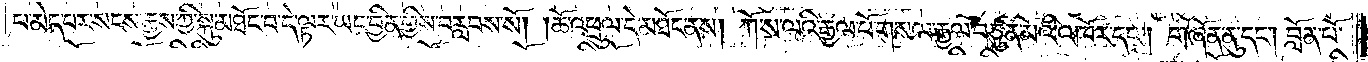པ་མེད་པར་སངས་རྒྱས་ཀྱི་སྐུ་མཐོང་བ་དེ་ལྟར་ཡང་བྱིན་གྱིས་བརླབས་སོ། །ཆོ་འཕྲུལ་དེ་མཐོང་ནས། ཀོ་ས་ལའི་རྒྱལ་པོ་གསལ་རྒྱལ་བཙུན་མོའི་འཁོར་དང༌། གཞོན་ནུ་དང༌། བློན་པོ་
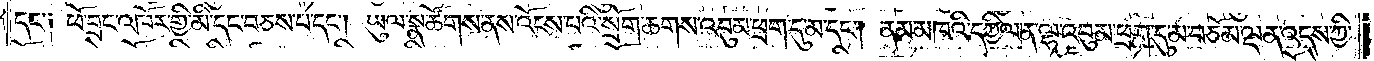དང༌། ཕོ་བྲང་འཁོར་གྱི་མི་དང་བཅས་པ་དང༌། ཡུལ་སྣ་ཚོགས་ནས་འོངས་པའི་སྲོག་ཆགས་འབུམ་ཕྲག་དུ་མ་དང༌། ནམ་མཁའི་དཀྱིལ་ན་ལྷ་འབུམ་ཕྲག་དུ་མ་བཅོམ་ལྡན་འདས་ཀྱི་
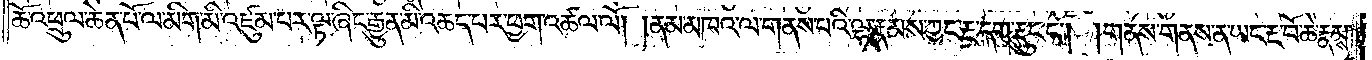ཆོ་འཕྲུལ་ཆེན་པོ་ལ་མིག་མི་འཛུམ་པར་ལྟ་ཞིང་རྒྱུན་མི་འཆད་པར་ཕྱག་འཚལ་ལོ། །ནམ་མཁའ་ལ་གནས་པའི་ལྷ་རྣམས་ཀྱང་རྔ་དག་རྡུང་ངོ༌། །གནས་གནས་ན་ཡང་རྔ་བོ་ཆེ་རྣམས་
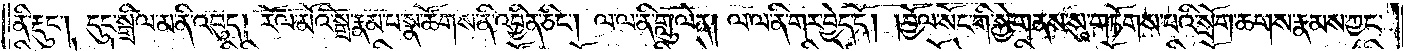ནི་རྡུང༌། དུང་སྒྲིལ་མ་ནི་འབུད། རོལ་མོའི་སྒྲ་རྣམ་པ་སྣ་ཚོགས་ནི་འབྱིན་ཅིང༌། ལ་ལ་ནི་གླུ་ལེན། ལ་ལ་ནི་གར་བྱེད་དོ། །བྱོལ་སོང་གི་སྐྱེ་གནས་སུ་གཏོགས་པའི་སྲོག་ཆགས་རྣམས་ཀྱང་
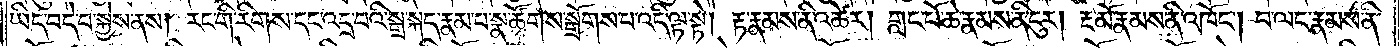ཡིད་བདེ་བ་སྐྱེས་ནས། རང་གི་རིགས་དང་འདྲ་བའི་སྒྲ་སྐད་རྣམ་པ་སྣ་ཚོགས་སྒྲོགས་པ་འདི་ལྟ་སྟེ། རྟ་རྣམས་ནི་འཚེར། གླང་པོ་ཆེ་རྣམས་ནི་ངུར། རྔ་མོ་རྣམས་ནི་འཁོང༌། བ་ལང་རྣམས་ནི་
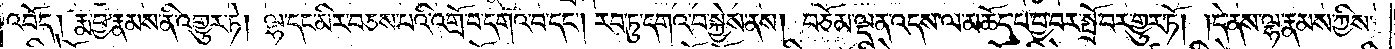འབོད། རྨ་བྱ་རྣམས་ནི་འགྱུར་ཏེ། ལྷ་དང་མིར་བཅས་པའི་འགྲོ་བ་དགའ་བ་དང༌། རབ་ཏུ་དགའ་བ་སྐྱེས་ནས། བཅོམ་ལྡན་འདས་ལ་མཆོད་པ་བྱ་བར་སྤོར་བར་གྱུར་ཏོ། །དེ་ནས་ལྷ་རྣམས་ཀྱིས་
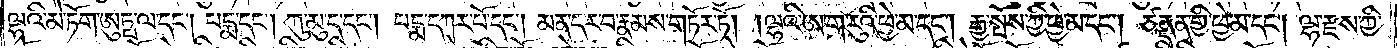ལྷའི་མེ་ཏོག་ཨུཏྤ་ལ་དང༌། པདྨ་དང༌། ཀུ་མུ་དང༌། པདྨ་དཀར་པོ་དང༌། མན་ད་ར་བ་རྣམས་གཏོར་ཏོ། །ལྷའི་ཨ་ག་རུའི་ཕྱེ་མ་དང༌། རྒྱ་སྤོས་ཀྱི་ཕྱེ་མ་དང༌། ཙནྡན་གྱི་ཕྱེ་མ་དང༌། ལྷ་རྫས་ཀྱི་
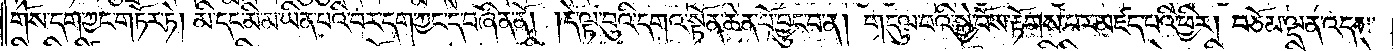གོས་དག་ཀྱང་གཏོར་ཏེ། མི་དང་མི་མ་ཡིན་པའི་བར་དག་ཀྱང་དེ་བཞིན་ནོ། །དེ་ལྟ་བུའི་དགའ་སྟོན་ཆེན་པོ་བྱུང་བ་ན། གདུལ་བའི་སྐྱེ་བོས་རྟོགས་པར་མཛད་པའི་ཕྱིར། བཅོམ་ལྡན་འདས་
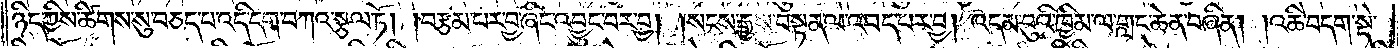ཉིད་ཀྱིས་ཚིགས་སུ་བཅད་པ་འདི་དག་བཀའ་སྩལ་ཏོ། །བརྩམ་པར་བྱ་ཞིང་འབྱུང་བར་བྱ། །སངས་རྒྱས་བསྟན་ལ་འབད་པར་བྱ། འདམ་བུའི་ཁྱིམ་ལ་གླང་ཆེན་བཞིན། །འཆི་བདག་སྡེ་
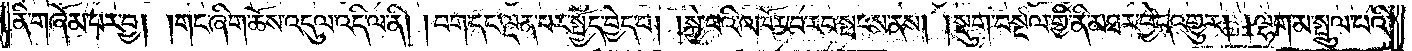ནི་གཞོམ་པར་བྱ། །གང་ཞིག་ཆོས་འདུལ་འདི་ལ་ནི། །བག་དང་ལྡན་པར་སྤྱོད་བྱེད་པ། །སྐྱེ་བའི་འཁོར་བ་རབ་སྤངས་ནས། །སྡུག་བསྔལ་གྱི་ནི་མཐར་བྱེད་འགྱུར། །ལྷག་མ་སྤྲུལ་པའི་
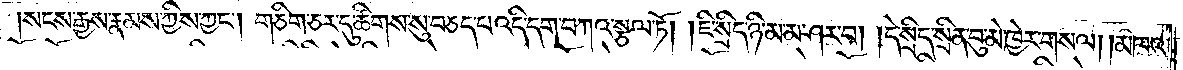སངས་རྒྱས་རྣམས་ཀྱིས་ཀྱང༌། གཅིག་ཅར་དུ་ཚིགས་སུ་བཅད་པ་འདི་དག་བཀའ་སྩལ་ཏོ། །ཇི་སྲིད་ཉི་མ་མ་ཤར་བ། །དེ་སྲིད་སྲིན་བུ་མེ་ཁྱེར་གསལ། །མཁའ་
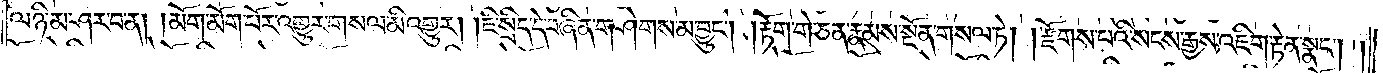ལ་ཉི་མ་ཤར་བ་ན། །མོག་མོག་པོར་འགྱུར་གསལ་མི་འགྱུར། །ཇི་སྲིད་དེ་བཞིན་གཤེགས་མ་བྱུང༌། །རྟོག་གེ་ཅན་རྣམས་སྔོན་གསལ་ཏེ། །རྫོགས་པའི་སངས་རྒྱས་འཇིག་རྟེན་སྣང༌། །
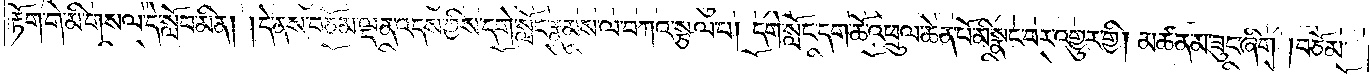རྟོག་གེ་མི་གསལ་དེ་སློབ་མིན། །དེ་ནས་བཅོམ་ལྡན་འདས་ཀྱིས་དགེ་སློང་རྣམས་ལ་བཀའ་སྩལ་པ། དགེ་སློང་དག་ཆོ་འཕྲུལ་ཆེན་པོ་མི་སྣང་བར་འགྱུར་གྱི། མཚན་མ་ཟུང་ཞིག །བཅོམ་
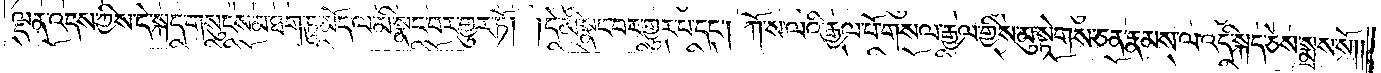ལྡན་འདས་ཀྱིས་དེ་སྐད་གསུངས་མ་ཐག་ཏུ་མོད་ལ་མི་སྣང་བར་གྱུར་ཏོ། །དེ་མི་སྣང་བར་གྱུར་པ་དང༌། ཀོ་ས་ལའི་རྒྱལ་པོ་གསལ་རྒྱལ་གྱིས་མུ་སྟེགས་ཅན་རྣམས་ལ་འདི་སྐད་ཅེས་སྨྲས་སོ། །
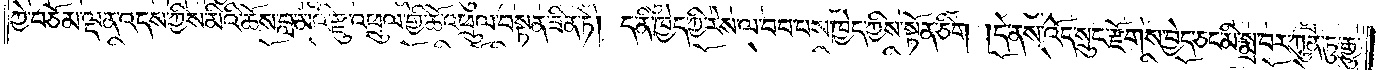ཀྱེ་བཅོམ་ལྡན་འདས་ཀྱིས་མིའི་ཆོས་བླ་མའི་རྫུ་འཕྲུལ་གྱི་ཆོ་འཕྲུལ་བསྟན་ཟིན་ཏེ། ད་ནི་ཁྱེད་ཀྱི་རེས་ལ་བབ་པས་ཁྱེད་ཀྱིས་སྟོན་ཅིག །དེ་ནས་འོད་སྲུང་རྫོགས་བྱེད་ཅང་མི་སྨྲ་བར་ཀུན་ཏུ་རྒྱུ་
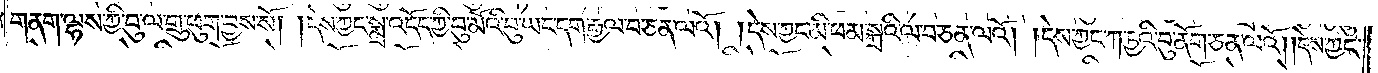གནག་ལྷས་ཀྱི་བུ་ལ་གྲུ་ཕུག་བྱས་སོ། །དེས་ཀྱང་སྨྲ་འདོད་ཀྱི་བུ་མོའི་བུ་ཡང་དག་རྒྱལ་བ་ཅན་ལའོ། །དེས་ཀྱང་མི་ཕམ་སྐྲའི་ལ་བ་ཅན་ལའོ། །དེས་ཀྱང་ཀ་ཏྱའི་བུ་ནོག་ཅན་ལའོ། །དེས་ཀྱང་
